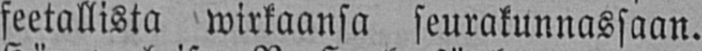feetallista wirkaansa seurakunnassaan.
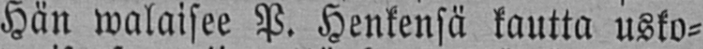Hän walaisee P. Henkensä kautta usko-
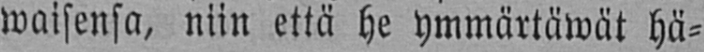waisensa, niin että he ymmärtäwät hä-
